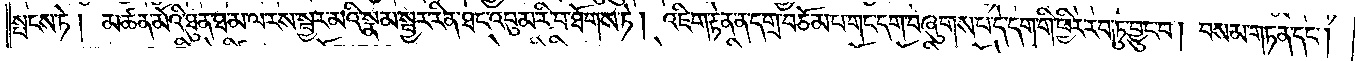སྤངས་ཏེ། མཚན་མོའི་ཐུན་ཐ་མ་ལ་རས་སྦྱར་མའི་སྣམ་སྦྱར་རིན་ཐང་འབུམ་རི་བ་ཐོགས་ཏེ། འཇིག་རྟེན་ན་དགྲ་བཅོམ་པ་གང་དག་བཞུགས་པ་དེ་དག་གི་ཕྱིར་རབ་ཏུ་བྱུང་བ། བསམ་གཏན་དང༌།
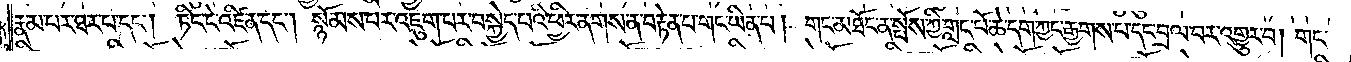རྣམ་པར་ཐར་པ་དང༌། ཏིང་ངེ་འཛིན་དང༌། སྙོམས་པར་འཇུག་པར་བསྐྱེད་པའི་ཕྱིར་ནགས་ན་བརྟེན་པ་གང་ཡིན་པ། གང་མཐོང་ན་སྤོས་ཀྱི་གླང་པོ་ཆེ་དག་ཀྱང་རྒྱགས་པ་དང་བྲལ་བར་འགྱུར་བ། གང་
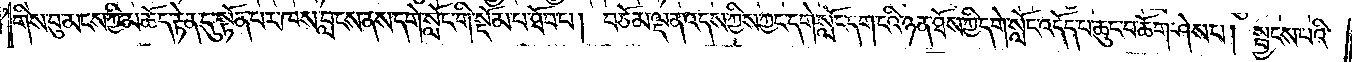གིས་བུ་མངས་ཀྱི་མཆོད་རྟེན་དུ་སྟོན་པར་ཁས་བླངས་ནས་དགེ་སློང་གི་སྡོམ་པ་ཐོབ་པ། བཅོམ་ལྡན་འདས་ཀྱིས་ཀྱང་དགེ་སློང་དག་ངའི་ཉན་ཐོས་ཀྱི་དགེ་སློང་འདོད་པ་ཆུང་བ་ཆོག་ཤེས་པ། སྦྱངས་པའི་
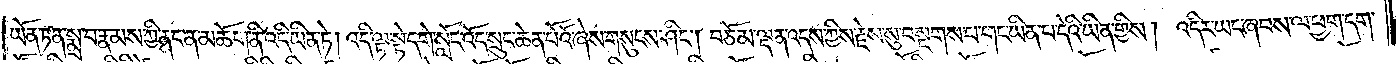ཡོན་ཏན་སྨྲ་བ་རྣམས་ཀྱི་ནང་ན་མཆོག་ནི་འདི་ཡིན་ཏེ། འདི་ལྟ་སྟེ་དགེ་སློང་འོད་སྲུང་ཆེན་པོའོ་ཞེས་གསུངས་ཤིང༌། བཅོམ་ལྡན་འདས་ཀྱིས་རྗེས་སུ་བསྔགས་པ་གང་ཡིན་པ་དེའི་ཡིན་གྱིས། འདིར་ཡང་ཞབས་ལ་ཕྱག་དག་
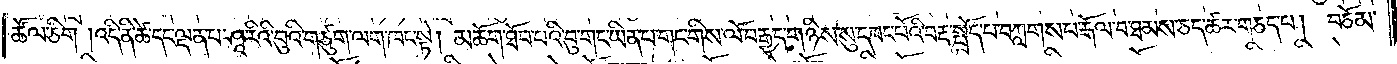ཚོལ་ཅིག །འདི་ནི་ཚེ་དང་ལྡན་པ་ཤཱ་རིའི་བུའི་གཙུག་ལག་ཁང་སྟེ། མཆོག་ཐོབ་པའི་བུ་གང་ཡིན་པ་གང་གིས་ལོ་བརྒྱད་གཉིས་སུ་དབང་པོའི་བརྡ་སྤྲོད་པ་བཀླགས་པ་རྒོལ་བ་ཐམས་ཅད་ཚར་གཅད་པ། བཅོམ་
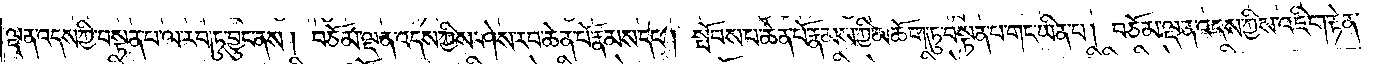ལྡན་འདས་ཀྱི་བསྟན་པ་ལ་རབ་ཏུ་བྱུང་ནས། བཅོམ་ལྡན་འདས་ཀྱིས་ཤེས་རབ་ཆེན་པོ་རྣམས་དང༌། སྤོབས་པ་ཆེན་པོ་རྣམས་ཀྱི་མཆོག་ཏུ་བསྟན་པ་གང་ཡིན་པ། བཅོམ་ལྡན་འདས་ཀྱིས་འཇིག་རྟེན་
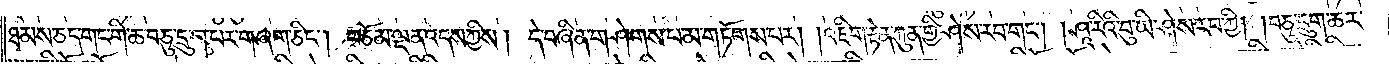ཐམས་ཅད་གང་གི་ཆ་བཅུ་དྲུག་པར་གཞག་ཅིང༌། བཅོམ་ལྡན་འདས་ཀྱིས། དེ་བཞིན་གཤེགས་པ་མ་གཏོགས་པར། འཇིག་རྟེན་ཀུན་གྱི་ཤེས་རབ་གང༌། ཤཱ་རིའི་བུ་ཡི་ཤེས་རབ་ཀྱི། བཅུ་དྲུག་ཆར་
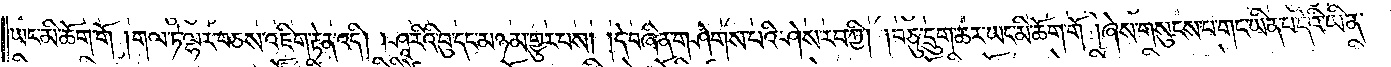ཡང་མི་ཆོག་གོ །གལ་ཏེ་ལྷར་བཅས་འཇིག་རྟེན་འདི། ཤཱ་རིའི་བུ་དང་མཉམ་གྱུར་པས། །དེ་བཞིན་གཤེགས་པའི་ཤེས་རབ་ཀྱི། བཅུ་དྲུག་ཆར་ཡང་མི་ཆོག་གོ། །ཞེས་གསུངས་པ་གང་ཡིན་པ་དེའི་ཡིན་
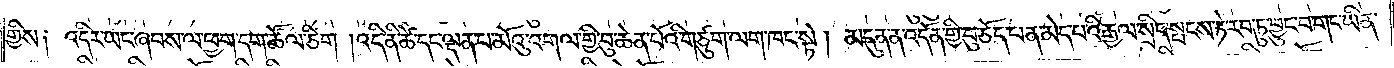གྱིས༑ འདིར་ཡང་ཞབས་ལ་ཕྱག་དག་ཚོལ་ཅིག །འདི་ནི་ཚེ་དང་ལྡན་པ་མོའུ་འགལ་གྱི་བུ་ཆེན་པོའི་གཙུག་ལག་ཁང་སྟེ། མདུན་ན་འདོན་གྱི་བུ་ཅོད་པན་མེད་པའི་རྒྱལ་སྲིད་སྤངས་ཏེ་རབ་ཏུ་བྱུང་བ་གང་ཡིན་
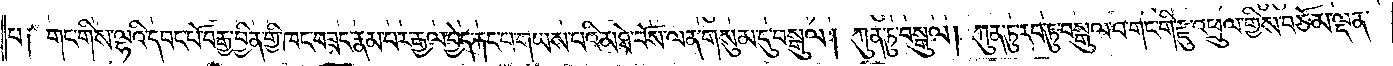པ༑ གང་གིས་ལྷའི་དབང་པོ་བརྒྱ་བྱིན་གྱི་ཁང་བཟང་རྣམ་པར་རྒྱལ་བྱེད་རྐང་པ་གཡས་པའི་མཐེ་བོས་ལན་གསུམ་དུ་བསྒུལ། ཀུན་ཏུ་བསྒུལ། ཀུན་ཏུ་རབ་ཏུ་བསྒུལ་བ་གང་གི་རྫུ་འཕྲུལ་གྱིས་བཅོམ་ལྡན་
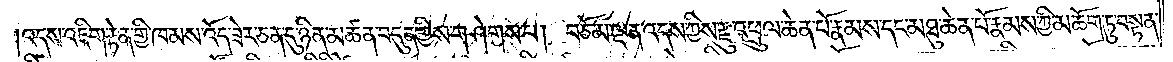འདས་འཇིག་རྟེན་གྱི་ཁམས་འོད་ཟེར་ཅན་དུ་ཉིན་མཚན་བདུན་གྱིས་གཤེགས་པ། བཅོམ་ལྡན་འདས་ཀྱིས་རྫུ་འཕྲུལ་ཆེན་པོ་རྣམས་དང་མཐུ་ཆེན་པོ་རྣམས་ཀྱི་མཆོག་ཏུ་བསྟན་
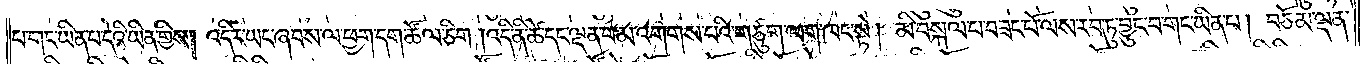པ་གང་ཡིན་པ་དེའི་ཡིན་གྱིས། འདིར་ཡང་ཞབས་ལ་ཕྱག་དག་ཚོལ་ཅིག །འདི་ནི་ཚེ་དང་ལྡན་པ་མ་འགགས་པའི་གཙུག་ལག་ཁང་སྟེ། མི་བསྐལ་པ་བཟང་པོ་ལས་རབ་ཏུ་བྱུང་བ་གང་ཡིན་པ། བཅོམ་ལྡན་
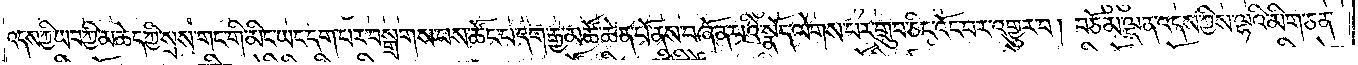འདས་ཀྱི་ཡབ་ཀྱི་མཆེད་ཀྱི་སྲས་གང་གི་མིང་ཡང་དག་པར་བསྒྲགས་པས་ཚོང་པ་དག་རྒྱ་མཚོ་ཆེན་པོ་ནས་བཞོན་པའི་སྣོད་ལེགས་པར་གྲུབ་ཅིང་འོང་བར་འགྱུར་བ། བཅོམ་ལྡན་འདས་ཀྱིས་ལྷའི་མིག་ཅན་
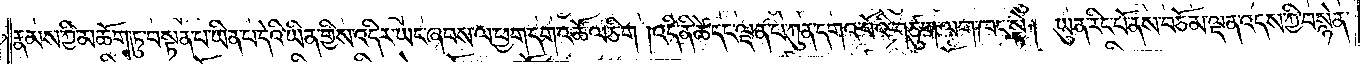རྣམས་ཀྱི་མཆོག་ཏུ་བསྟན་པ་ཡིན་པ་དེའི་ཡིན་གྱིས་འདིར་ཡང་ཞབས་ལ་ཕྱག་དག་འཚོལ་ཅིག །འདི་ནི་ཚེ་དང་ལྡན་པ་ཀུན་དགའ་བོའི་གཙུག་ལག་ཁང་སྟེ། ཡུན་རིང་པོ་ནས་བཅོམ་ལྡན་འདས་ཀྱིས་བསྙེན་
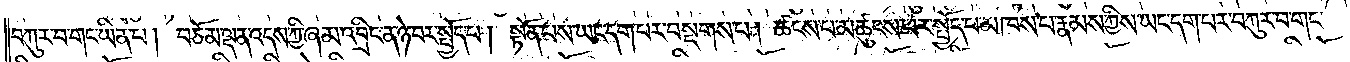བཀུར་བ་གང་ཡིན་པ། བཅོམ་ལྡན་འདས་ཀྱི་ཞམ་འབྲིང་ན་ཉེ་བར་སྤྱོད་པ། སྟོན་པས་ཡང་དག་པར་བསྔགས་པ། ཚངས་པ་མཚུངས་པར་སྤྱོད་པ་མཁས་པ་རྣམས་ཀྱིས་ཡང་དག་པར་བཀུར་བ་གང་
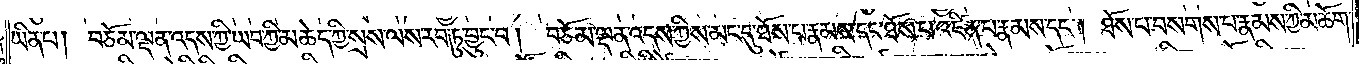ཡིན་པ། བཅོམ་ལྡན་འདས་ཀྱི་ཡབ་ཀྱི་མཆེད་ཀྱི་སྲས་ལས་རབ་ཏུ་བྱུང་བ། བཅོམ་ལྡན་འདས་ཀྱིས་མང་དུ་ཐོས་པ་རྣམས་དང་ཐོས་པ་འཛིན་པ་རྣམས་དང༌། ཐོས་པ་བསགས་པ་རྣམས་ཀྱི་མཆོག་
